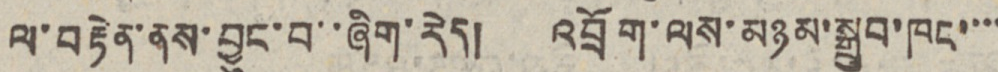ལ་བརྟེན་ནས་བྱུང་བ་་ཞིག་རེད། འབྲོག་ལས་མཉམ་སྒྲུབ་ཁང་་་་
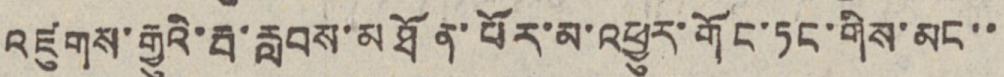འཛུགས་རྒྱུའི་རྦ་རླབས་མཐོན་པོར་མ་འཕྱུར་གོང་ཏང་གིས་མང་་
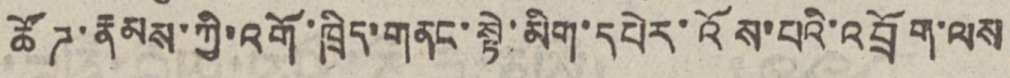ཚོཊ་རྣམས་ཀྱི་འགོ་ཁྲིད་གནང་སྟེ་མིག་དཔེར་འོས་པའི་འབྲོག་ལས
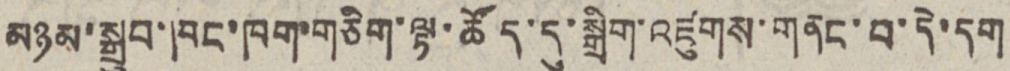མཉམ་སྒྲུབ་ཁང་ཁག་གཅིག་ལྟ་ཚོད་དུ་སྒྲིག་འཛུགས་གནང་བ་དེ་དག
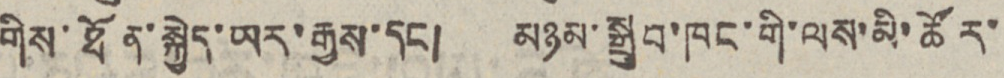གིས་ཐོན་སྐྱེད་ཡར་རྒྱས་དང། མཉམ་སྒྲུབ་ཁང་གི་ལས་མི་ཚོར་
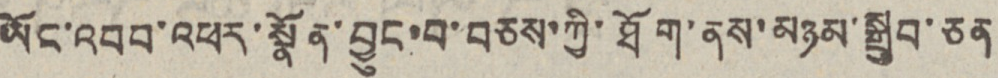ཡོང་འབབ་འཕར་སྣོན་བྱུང་བ་བཅས་ཀྱི་ཐོག་ནས་མཉམ་སྒྲུབ་ཅན
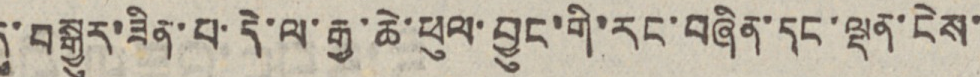དུ་བསྒྱུར་ཟིན་པ་དེ་ལ་རྒྱ་ཆེ་ཕུལ་བྱུང་གི་རང་བཞིན་དང་ལྡན་ངེས་
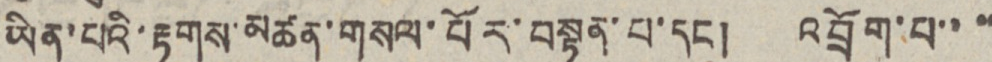ཡིན་པའི་རྟགས་མཚན་གསལ་པོར་བསྟན་པ་དང། འབྲོག་པ་་ ་་
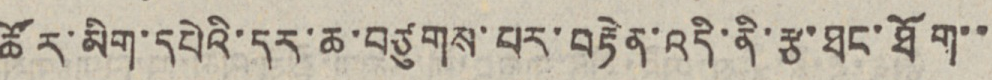ཚོར་མིག་དཔེའི་དར་ཆ་བཙུགས་པར་བརྟེན་འདི་ནི་ཙ་ཐང་ཐོག་་
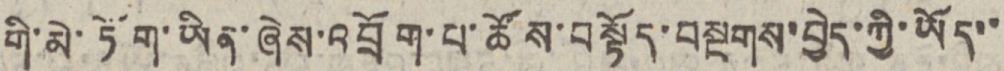གི་མེ་ཏོག་ཡིན་ཞེས་འབྲོག་པ་ཚོས་བསྟོད་བསྔགས་ཀྱི་ཡོད་་
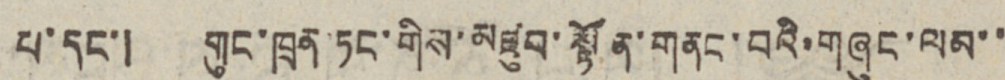པ་དང་། གུང་ཁྲན་ཏང་གིས་མཛུབ་སྟོན་གནང་བའི་གཞུང་ལམ་་
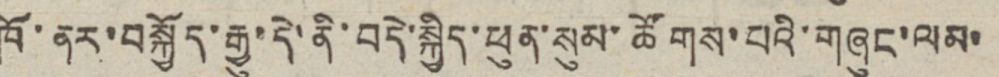ཁོ་ནར་བསྐྱོད་རྒྱུ་དེ་ནི་བདེ་སྐྱིད་ཕུན་སུམ་ཚོགས་པའི་གཞུང་ལམ་
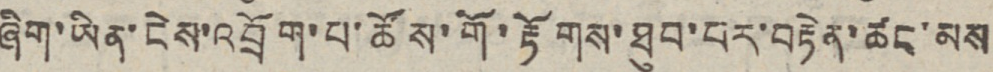ཞིག་ཡིན་ངེས་འབྲོག་པ་ཚོས་གོ་རྟོགས་ཐུབ་པར་བརྟེན་ཚང་མས
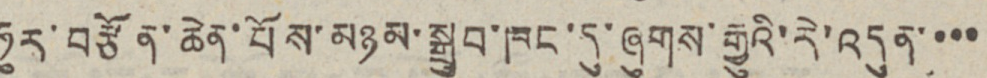ཧུར་བརྩོན་ཆེན་པོས་མཉམ་སྒྲུབ་ཁང་དུ་ཞུགས་རྒྱུའི་རེ་འདུན་་་་
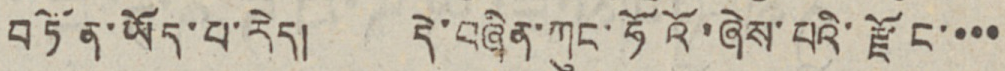བཏོན་ཡོད་པ་རེད། དེ་བཞིན་ཀུང་ཧོའོ་ཞེས་པའི་རྫོང་་་་
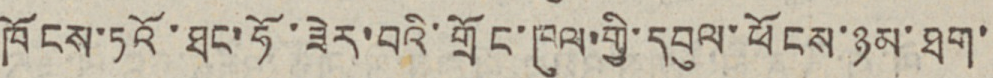ཁོངས་ཏའོ་ཐང་ཧོ་ཟེར་བའི་གྲོང་ཁུལ་གྱི་དབུལ་ཕོངས་ཉམ་ཐག་
